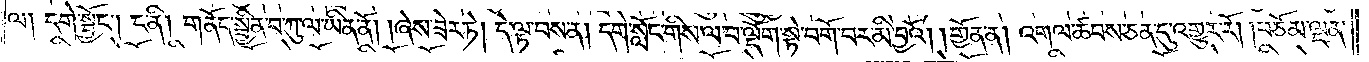ལ། དགེ་སྦྱོང༌། ང་ནི། གནོད་སྦྱིན་བ་ཀུ་ལ་ཡིན་ནོ། །ཞེས་ཟེར་ཏེ། དེ་ལྟ་བས་ན། དགེ་སློང་གིས་ལ་བ་ལྡོག་སྟེ་བགོ་བར་མི་བྱའོ། །གྱོན་ན། འགལ་ཚབས་ཅན་དུ་འགྱུར་རོ། །བཅོམ་ལྡན་
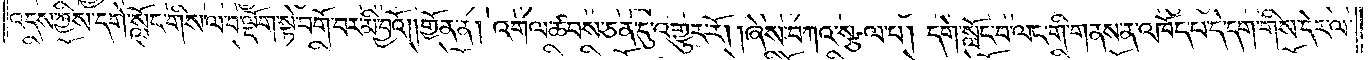འདས་ཀྱིས་དགེ་སློང་གིས་ལ་བ་ལྡོག་སྟེ་བགོ་བར་མི་བྱའོ། །གྱོན་ན། འགལ་ཚབས་ཅན་དུ་འགྱུར་རོ། །ཞེས་བཀའ་སྩལ་པ། དགེ་སློང་བ་ལང་གི་གནས་ན་འཁོད་པ་དེ་དག་གིས་དེར་ལ་
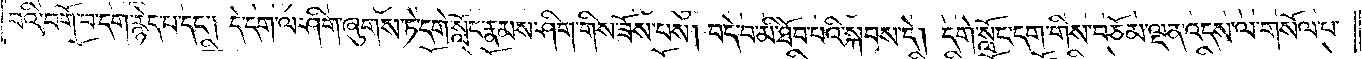བའི་བགོ་བ་དག་རྙེད་པ་དང༌། དེ་དག་ལ་ཤིག་ཞུགས་ཏེ་དགེ་སློང་རྣམས་ཤིག་གིས་ཟོས་པས། བདེ་བ་མི་ཐོབ་པའི་སྐབས་དེ། དགེ་སློང་དག་གིས་བཅོམ་ལྡན་འདས་ལ་གསོལ་པ་
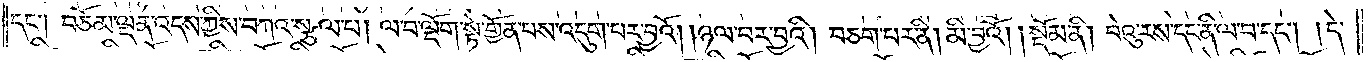དང༌། བཅོམ་ལྡན་འདས་ཀྱིས་བཀའ་སྩལ་པ། ལ་བ་ལྡོག་སྟེ་གྱོན་པས་འདུག་པར་བྱའོ། །ཉལ་བར་བྱའི། བཅག་པར་ནི། མི་བྱའོ།    །སྡོམ་ནི། བེའུ་རས་དང་ནི་ལ་བ་དང༌། དེ་
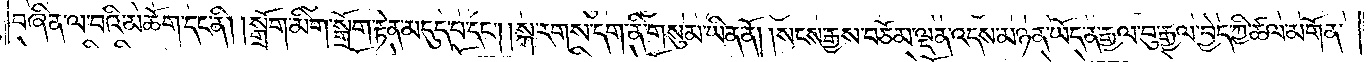བཞིན་ལ་བའི་མཆོག་དང་ནི། །སྒྲོག་མིག་སྒྲོག་རྟེན་མདུད་པ་དང༌། །སྐ་རགས་དག་ནི་གསུམ་ཡིན་ནོ། །སངས་རྒྱས་བཅོམ་ལྡན་འདས་མཉན་ཡོད་ན་རྒྱལ་བུ་རྒྱལ་བྱེད་ཀྱི་ཚལ་མགོན་
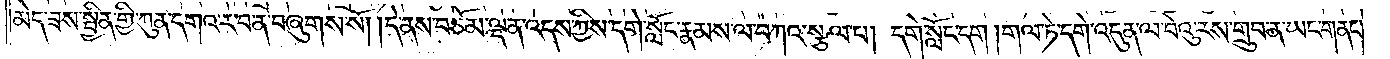མེད་ཟས་སྦྱིན་གྱི་ཀུན་དགའ་ར་བ་ན་བཞུགས་སོ། །དེ་ནས་བཅོམ་ལྡན་འདས་ཀྱིས་དགེ་སློང་རྣམས་ལ་བཀའ་སྩལ་པ། དགེ་སློང་དག། གལ་ཏེ་དགེ་འདུན་ལ་བེའུ་རས་གྲུབ་ན་ཡང་གནང་
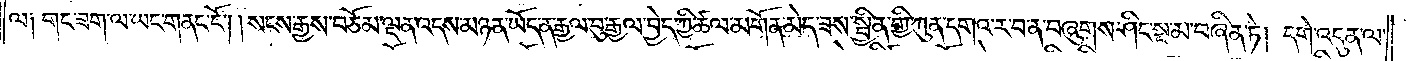ལ། གང་ཟག་ལ་ཡང་གནང་ངོ༌། །སངས་རྒྱས་བཅོམ་ལྡན་འདས་མཉན་ཡོད་ན་རྒྱལ་བུ་རྒྱལ་བྱེད་ཀྱི་ཚལ་མགོན་མེད་ཟས་སྦྱིན་གྱི་ཀུན་དགའ་ར་བ་ན་བཞུགས་ཤིང་སྔ་མ་བཞིན་ཏེ། དགེ་འདུན་ལ་
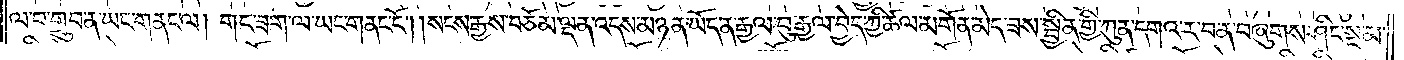ལ་བ་གྲུབ་ན་ཡང་གནང་ལ། གང་ཟག་ལ་ཡང་གནང་ངོ༌། །སངས་རྒྱས་བཅོམ་ལྡན་འདས་མཉན་ཡོད་ན་རྒྱལ་བུ་རྒྱལ་བྱེད་ཀྱི་ཚལ་མགོན་མེད་ཟས་སྦྱིན་གྱི་ཀུན་དགའ་ར་བ་ན་བཞུགས་ཤིང་སྔ་མ་
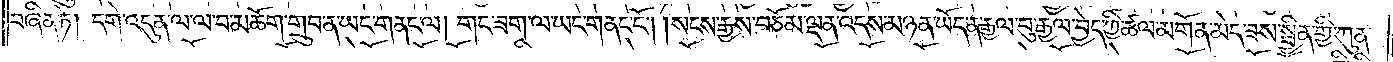བཞིན་ཏེ། དགེ་འདུན་ལ་ལ་བ་མཆོག་གྲུབ་ན་ཡང་གནང་ལ། གང་ཟག་ལ་ཡང་གནང་ངོ༌། །སངས་རྒྱས་བཅོམ་ལྡན་འདས་མཉན་ཡོད་ན་རྒྱལ་བུ་རྒྱལ་བྱེད་ཀྱི་ཚལ་མགོན་མེད་ཟས་སྦྱིན་གྱི་ཀུན་
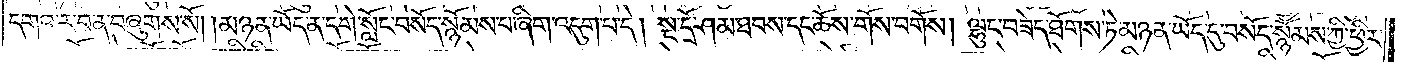དགའ་ར་བ་ན་བཞུགས་སོ། །མཉན་ཡོད་ན་དགེ་སློང་བསོད་སྙོམས་པ་ཞིག་འདུག་པ་དེ། སྔ་དྲོ་ཤམ་ཐབས་དང་ཆོས་གོས་བགོས། ལྷུང་བཟེད་ཐོགས་ཏེ་མཉན་ཡོད་དུ་བསོད་སྙོམས་ཀྱི་ཕྱིར་
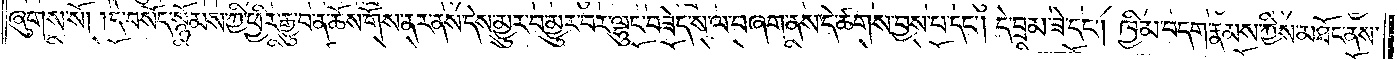ཞུགས་སོ། །དེ་བསོད་སྙོམས་ཀྱི་ཕྱིར་རྒྱུ་བ་ན་ཆོས་གོས་ནར་ནས་དེས་མྱུར་བ་མྱུར་བར་ལྷུང་བཟེད་ས་ལ་བཞག་ནས་དེ་ཚགས་བྱས་པ་དང༌། དེ་བྲམ་ཟེ་དང༌། ཁྱིམ་བདག་རྣམས་ཀྱིས་མཐོང་ནས་
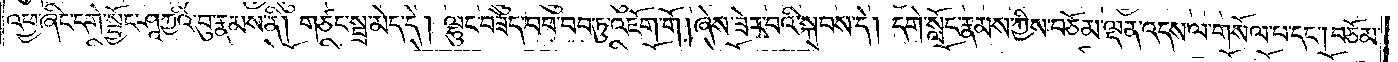འཕྱ་ཞིང་དགེ་སྦྱོང་ཤཱཀྱའི་བུ་རྣམས་ནི། གཙང་སྦྲ་མེད་དེ། ལྷུང་བཟེད་བབ་བབ་ཏུ་འཇོག་གོ །ཞེས་ཟེར་བའི་སྐབས་དེ། དགེ་སློང་རྣམས་ཀྱིས་བཅོམ་ལྡན་འདས་ལ་གསོལ་པ་དང༌། བཅོམ་
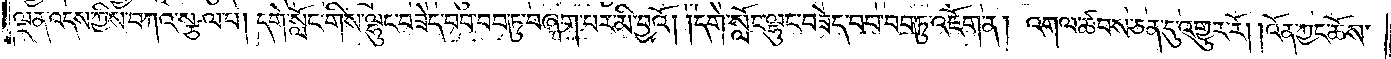ལྡན་འདས་ཀྱིས་བཀའ་སྩལ་པ། དགེ་སློང་གིས་ལྷུང་བཟེད་བབ་བབ་ཏུ་བཞག་པར་མི་བྱའོ། །དགེ་སློང་ལྷུང་བཟེད་བབ་བབ་ཏུ་འཇོག་ན། འགལ་ཚབས་ཅན་དུ་འགྱུར་རོ། །འོན་ཀྱང་ཆོས་
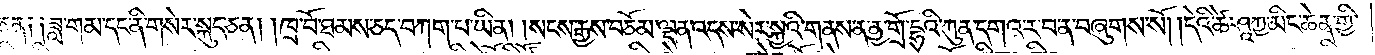ཅན༑ ༑ཟླ་གམ་དང་ནི་གསེར་སྐུད་ཅན། །ཁྲ་བོ་ཐམས་ཅད་བཀག་པ་ཡིན། །སངས་རྒྱས་བཅོམ་ལྡན་འདས་སེར་སྐྱའི་གནས་ན་ནྱ་གྲོ་དྷའི་ཀུན་དགའ་ར་བ་ན་བཞུགས་སོ། །དེའི་ཚེ་ཤཱཀྱ་མིང་ཆེན་གྱི་
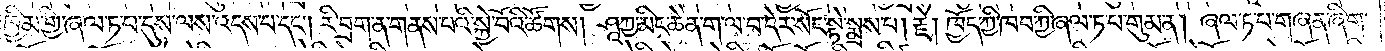ཁྱིམ་གྱི་ཞལ་ཏ་པ་དུས་ལས་འདས་པ་དང༌། རི་བྲག་ན་གནས་པའི་སྐྱེ་བོའི་ཚོགས། ཤཱཀྱ་མིང་ཆེན་ག་ལ་བ་དེར་སོང་སྟེ་སྨྲས་པ། རྗེ། ཁྱོད་ཀྱི་ཁབ་ཀྱི་ཞལ་ཏ་པ་གུམ་ན། ཞལ་ཏ་པ་གཞན་ཞིག་
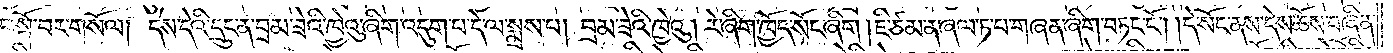བསྐོ་བར་གསོལ། དེས་དེའི་དྲུང་ན་བྲམ་ཟེའི་ཁྱེའུ་ཞིག་འདུག་པ་དེ་ལ་སྨྲས་པ། བྲམ་ཟེའི་ཁྱེའུ། རེ་ཞིག་ཁྱོད་སོང་ཞིག །ཇི་ཙམ་ན་ཞལ་ཏ་པ་གཞན་ཞིག་བཏང་ངོ༌། །དེ་སོང་ནས་དེས་ཆོས་བཞིན་
